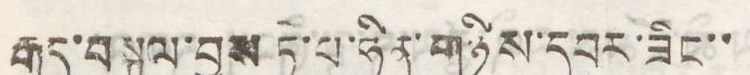རྒྱུད་བསྐུལ་བྱས་ཏེ་པ་ཧིན་གཉིས་དབར་ཟིང་་
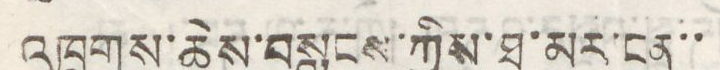འཁྲུགས་ཆེས་བསླངས་ཀྱིས་ཐ་མར་ངན་་་
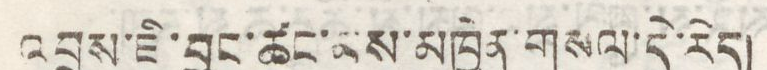འབྲས་ཇི་བྱུང་ཚང་མས་མཁྱེན་གསལ་དེ་རེད།
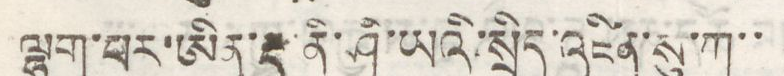ལྷག་པར་ཨིན་རྡུ་ནི་ཤི་ཡའི་སྲིད་འཛིན་སུ་ཀ་་
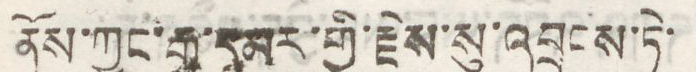ནོས་ཀྱང་རྒྱ་དམར་གྱི་རྗེས་སུ་འབྲངས་ཏེ་
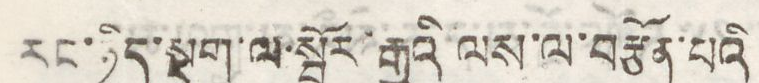རང་ཉིད་སྡུག་ལ་སྦྱོར་རྒྱུའི་ལས་ལ་བརྩོན་པའི
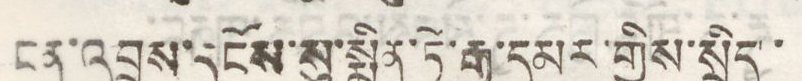ངན་འབྲས་དངོས་སུ་སྨིན་ཏེ་རྒྱ་དམར་གྱིས་སྲིད་
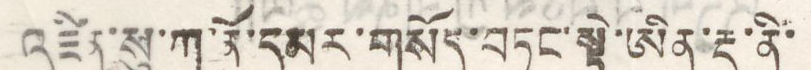འཛིན་སུ་ཀ་ནོ་དམར་གསོད་བཏང་སྟེ་ཨིན་རྡུ་ནི་
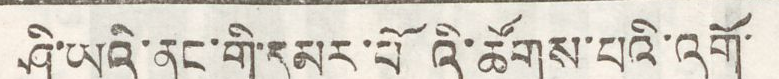ཤི་ཡའི་ནང་གི་དམར་པོའི་ཚོགས་པའི་འགོ་
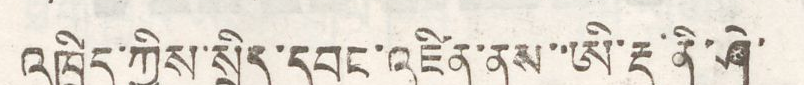འཁྲིད་ཀྱིས་སྲིད་དབང་འཛིན་ནས་་ཨི་རྡུ་ནི་ཤེ་
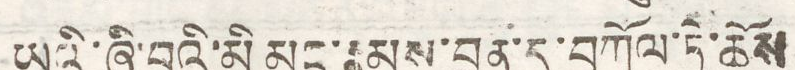ཡའི་ཞི་བའི་མི མང་རྣམས་བྲན་དུ་བཀོལ་ཏེ་ཆོས
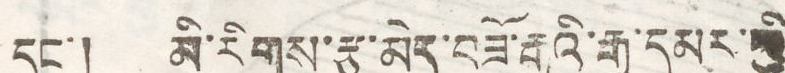དང་། མི་རིགས་རྩ་མེད་བཟོ རྒྱུའི་རྒྱ་དམར་གྱི
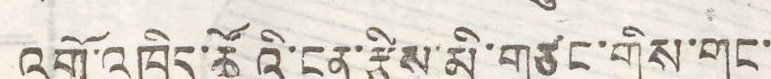འགོ་འཁྲིད་ཚོའི་ངན་རྩིས་མི་གཙང་གིས་གང་
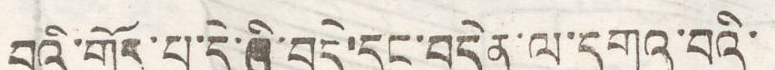བའི་གྲོད་པ་དེ་ཞི་བདེ་དྲང་བདེན་ལ་དགའ་བའི་
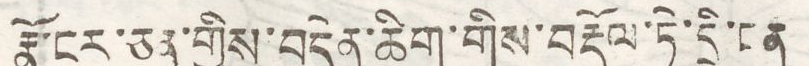རྣོ་ངར་ཅན་གྱིས་བདེན་ཚིག་གིས་བརྡོལ་ཏེ་དྲི་ངན
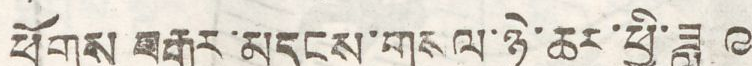ཕྱོགས བརྒྱར་མདངས་གསལ་ཉེ་ཆར་ཕྱི་ཟླ ༩
